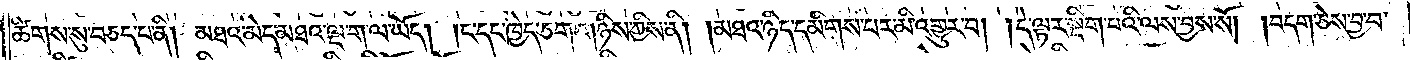ཚིགས་སུ་བཅད་པ་ནི། མཐའ་མེད་མཐའ་ལྔ་ག་ལ་ཡོད། །ང་དང་ཁྱེད་ཅག་གཉིས་ཀྱིས་ནི། །མཐའ་ཉིད་དམིགས་པར་མི་འགྱུར་བ། །དེ་ལྟར་སྡིག་བའི་ལས་བྱས་སོ། །བདག་ཅེས་བྱ་བ་
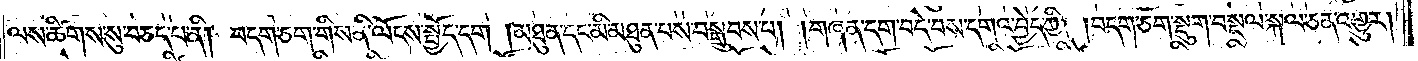ལས་ཚིགས་སུ་བཅད་པ་ནི། བདག་ཅག་གིས་ནི་ལོངས་སྤྱོད་དག །མཐུན་དང་མི་མཐུན་པས་བསྒྲུབས་པ། །གཞན་དག་བདེ་བས་དགའ་བྱེད་ཀྱི། །བདག་ཅག་སྡུག་བསྔལ་སྐལ་ཅན་འགྱུར།
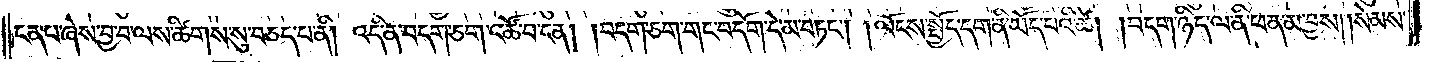ངན་པ་ཞེས་བྱ་བ་ལས་ཚིགས་སུ་བཅད་པ་ནི། འདི་ན་བདག་ཅག་འཚོ་བ་ངན། །བདག་ཅག་གང་བདོག་དེ་མ་བཏང༌། །ལོངས་སྤྱོད་དག་ནི་ཡོད་པའི་ཚེ། །བདག་ཉིད་ལ་ནི་ཕན་མ་བྱས། །སེམས་
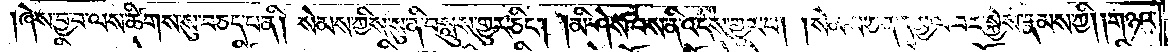།ཞེས་བྱ་བ་ལས་ཚིགས་སུ་བཅད་པ་ནི། སེམས་ཀྱིས་སུ་ནི་བསླུས་གྱུར་ཅིང༌། །མི་ཤེས་པས་ནི་འདས་གྱུར་པ། །སེམས་ཅན་དམྱལ་བར་སྐྱེས་རྣམས་ཀྱི། །གཉའ་
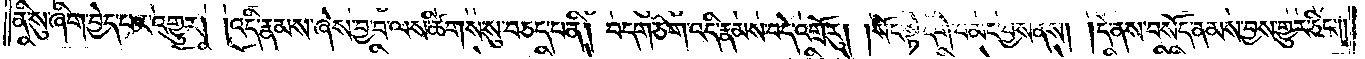ནི་སུ་ཞིག་བྱེད་པར་འགྱུར། །འདི་རྣམས་ཞེས་བྱ་བ་ལས་ཚིགས་སུ་བཅད་པ་ནི། བདག་ཅག་འདི་རྣམས་བདེ་འགྲོ་རུ། །སོང་སྟེ་དགེ་བ་མང་བྱས་ནས། །དེ་ནས་བསོད་ནམས་བྱས་གྱུར་ཅིང༌། །
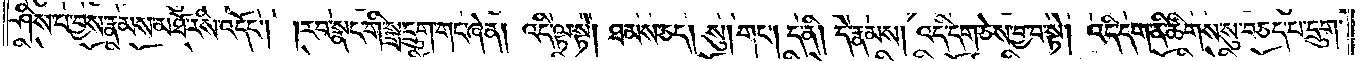ཤིས་པ་བྱས་རྣམས་མཐོ་རིས་འདོང༌། །རབ་སྣང་གི་སྒྲ་དྲུག་གང་ཞེ་ན། འདི་ལྟ་སྟེ། ཐམས་ཅད། སུ། གང༌། ད་ནི། དེ་རྣམས། འདི་དག་ཅེས་བྱ་བ་སྟེ། འདི་དག་ནི་ཚིགས་སུ་བཅད་པ་དྲུག་
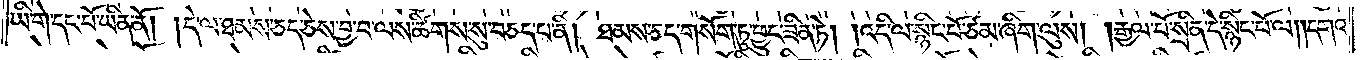ཡི་གེ་དང་པོ་ཡིན་ནོ། །དེ་ལ་ཐམས་ཅད་ཅེས་བྱ་བ་ལས་ཚིགས་སུ་བཅད་པ་ནི། ཐམས་ཅད་གསོག་ཏུ་ཕྱུང་ཟིན་ཏེ། །འདི་ལ་སྙིང་པོ་ཙམ་ཞིག་ལུས། །རྒྱལ་པོ་སྲིན་དེ་སྙིང་པོ་ལ། །དགའ་
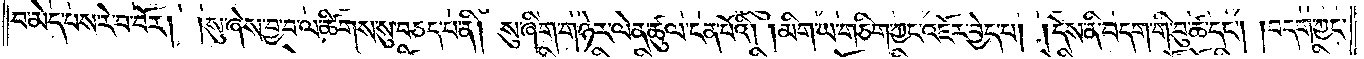བ་མེད་པས་རེ་བ་བོར། །སུ་ཞེས་བྱ་བ་ལ་ཚིགས་སུ་བཅད་པ་ནི། སུ་ཞིག་གཉེར་ལེན་ཚུལ་ངན་པོའི། །མིག་ཡ་གཅིག་ཀྱང་འཇོར་བྱེད་པ། །དེས་ནི་བདག་གི་བུ་ཚ་དང༌། །བདག་ཀྱང་
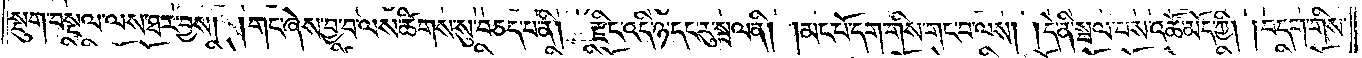སྡུག་བསྔལ་ལས་ཐར་བྱས། །གང་ཞེས་བྱ་བ་ལས་ཚིགས་སུ་བཅད་པ་ནི། རྫིང་འདི་ཉ་དང་རུ་སྦལ་ནི། །མང་པོ་དག་གིས་གང་བ་ལས། །དེ་ནི་སྦལ་པས་འཚོ་མོད་ཀྱི། །བདག་གིས་
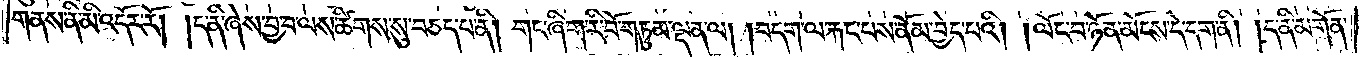གནས་ནི་མི་འདོར་རོ། །ད་ནི་ཞེས་བྱ་བ་ལས་ཚིགས་སུ་བཅད་པ་ནི། གང་ཞིག་རི་བོ་གཏུམ་ལྡན་ལ། །བདག་ལ་རྐང་པས་ནོམ་བྱེད་པའི། །ལོང་བ་ཉོན་མོངས་དེ་དག་ནི། །ད་ནི་མགོན་
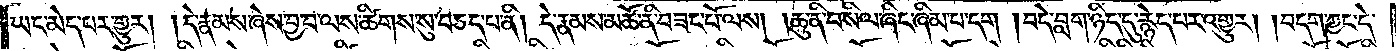ཡང་མེད་པར་གྱུར། །དེ་རྣམས་ཞེས་བྱ་བ་ལས་ཚིགས་སུ་བཅད་པ་ནི། དེ་རྣམས་མཚོ་ནི་བཟང་པོ་ལས། །ཆུ་ནི་བསིལ་ཞིང་ཞིམ་པ་དག །བདེ་བླག་ཉིད་དུ་རྙེད་པར་འགྱུར། །བདག་ཀྱང་དེ་
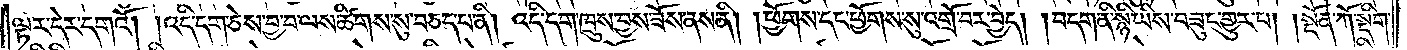ལྟར་དེར་དགའོ། །འདི་དག་ཅེས་བྱ་བ་ལས་ཚིགས་སུ་བཅད་པ་ནི། འདི་དག་ཁྲུས་བྱས་ཟོས་ནས་ནི། །ཕྱོགས་དང་ཕྱོགས་སུ་འགྲོ་བར་བྱེད། །བདག་ནི་སྙི་ཡིས་བཟུང་གྱུར་པ། །སྔོན་ཀོ་སྡིག་
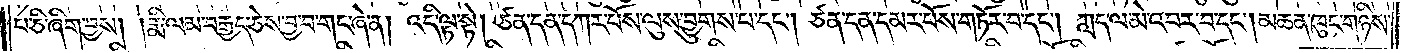པ་ཅི་ཞིག་བྱས། །རྨི་ལམ་བརྒྱད་ཅེས་བྱ་བ་གང་ཞེ་ན། འདི་ལྟ་སྟེ། ཙན་དན་དཀར་པོས་ལུས་བྱུགས་པ་དང༌། ཙན་དན་དམར་པོས་གཏོར་བ་དང༌། ཀླད་ལ་མེ་འབར་བ་དང༌། མཆན་ཁུང་གཉིས་
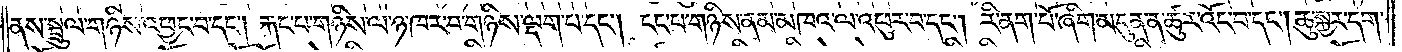ནས་སྦྲུལ་གཉིས་འཕྱང་བ་དང༌། རྐང་པ་གཉིས་ལ་ཉ་ཁར་བ་གཉིས་ལྡག་པ་དང༌། ངང་པ་གཉིས་ནམ་མཁའ་ལ་འཕུར་བ་དང༌། རི་ནག་པོ་ཞིག་མདུན་ན་ཚུར་འོང་བ་དང༌། ཆུ་སྐྱར་དག་
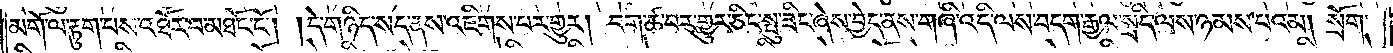མགོ་ལ་རྟུག་པས་འཐོར་བ་མཐོང་ངོ༌། །དེ་གཉིད་སད་ནས་འཇིགས་པར་གྱུར། བག་ཚ་བར་གྱུར་ཅིང་སྤུ་ཟིང་ཞེས་བྱེད་ནས་གཞི་འདི་ལས་བདག་རྒྱལ་སྲིད་ལས་ཉམས་པའམ། སྲོག་
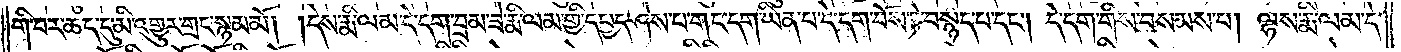གི་བར་ཆད་དུ་མི་འགྱུར་གྲང་སྙམ་མོ། །དེས་རྨི་ལམ་དེ་དག་བྲམ་ཟེ་རྨི་ལམ་གྱི་དཔྱད་ཤེས་པ་གང་དག་ཡིན་པ་དེ་དག་བོས་ཏེ་བསྙད་པ་དང༌། དེ་དག་གིས་བསམས་པ། ལྷས་རྨི་ལམ་དེ་
